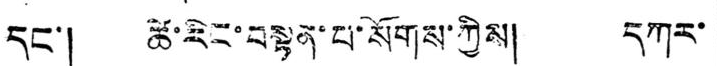དང་། ཚེ་རིང་བསྟན་པ་སོགས་ཀྱིས། དཀར་
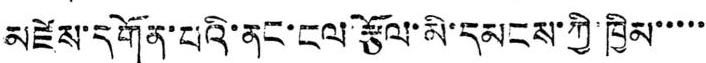མཛེས་དགོན་པའི་ནང་ངལ་རྩོལ་མི་དམངས་ཀྱི་ཁྱིམ་་་་་
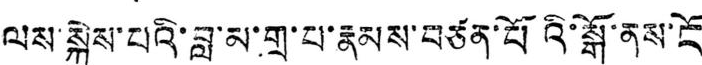ལས་སྐྱེས་པའི་བླ་མ་གྲ་པ་རྣམས་བཙན་པོའི་སྒོ་ནས་ངོ
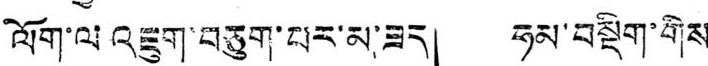ལོག་ལ འཇུག་བཅུག་པར་མ་ཟད། ཧམ་བསྡིག་གིས
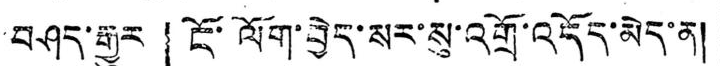བཤད་རྒྱུར 「ངོ་ལོག་བྱེད་སར་སུ་འགྲོ་འདོད་མེད་ན།
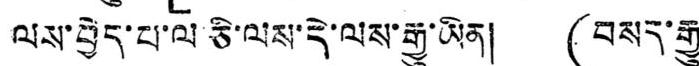ལས་བྱེད་པ་ལ་ཅི་ལས་དེ་ལས་རྒྱུ་ཡིན། (བསད་རྒྱུ་
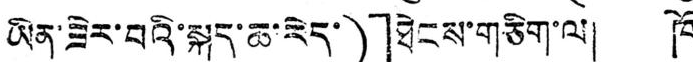ཡིན་ཟེར་བའི་སྐད་ཆ་རེད་)」ཐེངས་གཅིག་ལ། ཁོ
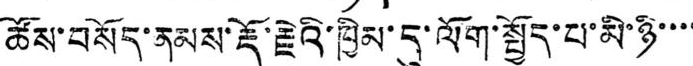ཚོས་བསོད་ནམས་རྡོ་རྗེའི་ཁྱིམ་དུ་ལོག་སྤྱོད་པ་མི་ཉི་་་་
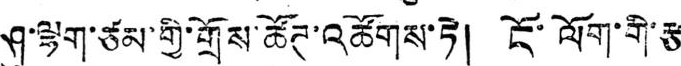ཤུ་ལྷག་ཙམ་གྱི་གྲོས་ཚོཊ་འཚོགས་ཏེ། ངོ་ལོག་གི་རྩ་
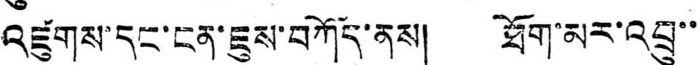འཛུགས་དང་ངན་ཇུས་བཀོད་ནས། ཐོག་མར་འབྲུ་་
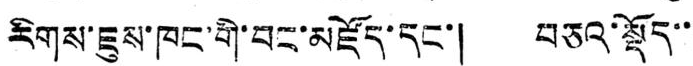རིགས་ཇུས་ཁང་གི་བང་མཛོད་དང་། བཅའ་སྡོད་་་
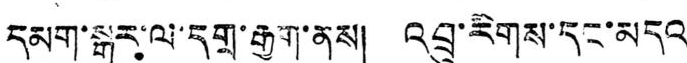དམག་སྒར་ལ་དགྲ་རྒྱག་ནས། འབྲུ་རིགས་དང་མདའ་
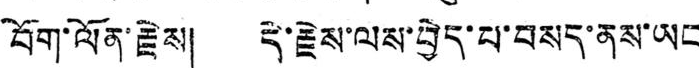བོག་ལོན་རྗེས། དེ་རྗེས་ལས་བྱེད་པ་བསད་ནས་ཡང
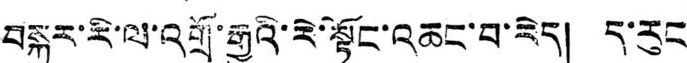བསྐྱར་རི་ལ་འགྲོ་རྒྱུའི་རེ་སྟོང་འཆང་བ་རེད། ད་རུང་
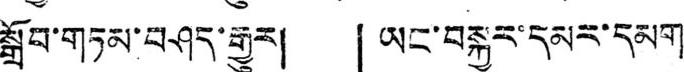སྒྲོབ་གཏམ་བཤད་རྒྱུར། 「ཡང་བསྐྱར་དམར་དམག་
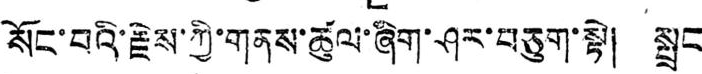སོང་བའི་རྗེས་ཀྱི་གནས་ཚུལ་ཞིག་ཤར་བཅུག་སྟེ། སྤྲང
